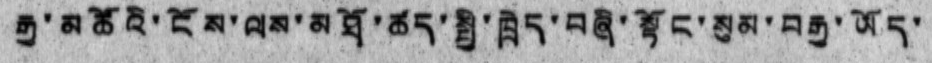རྒྱ་མཚོའི་ངོས་ལས་མཐོ་ཚད་སྤྱི་ཁྲིད་བཞི་སྟོང་སུམ་བརྒྱ་ཡོད་
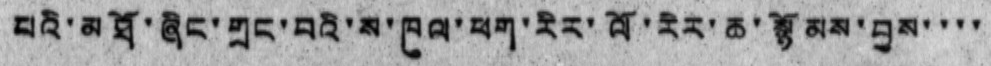པའི་མཐོ་ཞིང་གྲང་བའི་ས་ཁུལ་ཕག་རིར་ལོ་རེར་ཆ་སྙོམས་བྱས་་་་
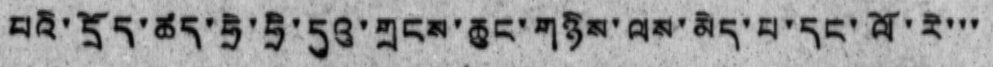པའི་དྲོད་ཚད་ཧྲེ་ཧྲི་དུའུ་གྲངས་ཆུང་གཉིས་ལས་མེད་པ་དང་ལོ་རེ་་་
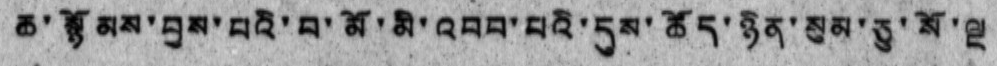ཆ་སྙོམས་བྱས་པའི་བ་མོ་མི་འབབ་པའི་དུས་ཚོད་ཉིན་སུམ་ཅུ་སོ་ལྔ
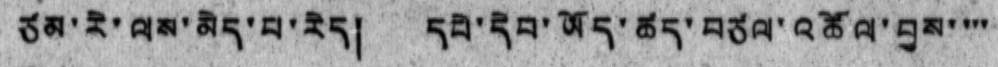ཙམ་རེ་ལས་མེད་པ་རེད། དཔེ་དེབ་ཡོད་ཚད་བཙལ་འཚོལ་བྱས་་་་
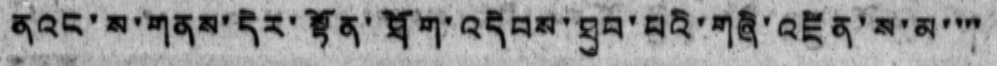ནའང་བ་གནས་དེར་སྟོན་ཐོག་འདེབས་ཐུབ་པའི་གཞི་འཛིན་ས་མ་་་་
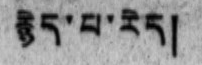རྙེད་པ་རེད།
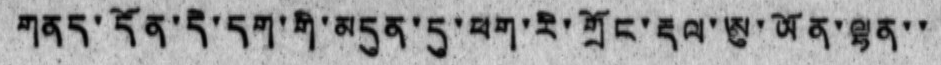གནད་དོན་དེ་དག་གི་མདུན་དུ་ཕག་རི་གྲོང་རྡལ་ཨུ་ཡོན་ལྷན་་
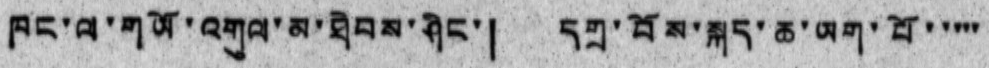ཁང་ལ་གཡོ་འགུལ་མ་ཐེབས་ཤིང་། དགྲ་བོས་སྐད་ཆ་ཡག་པོ་་་་་
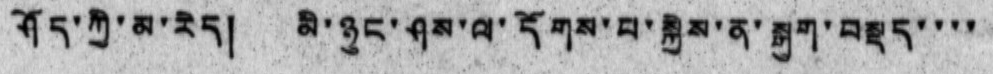ཤོད་ཀྱི་མ་རེད། མི་ཉུང་ཤས་ལ་དོགས་པ་སྐྱེས་ན་སྒུག་བསྡད་་་་
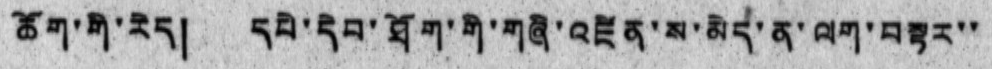ཆོག་གི་རེད། དཔེ་དེབ་ཐོག་གི་གཞི་འཛིན་ས་མེད་ན་ལག་བསྟར་་
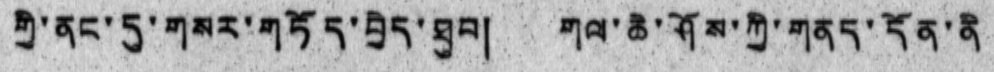གྱི་ནང་དུ་གསར་གཏོད་བྱེད་ཐུབ། གལ་ཆེ་ཤོས་ཀྱི་གནད་དོན་ནི
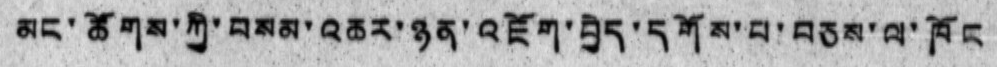མང་ཚོགས་ཀྱི་བསམ་འཆར་ཉན་འཇོག་བྱེད་དགོས་པ་བཅས་ལ་ཁོང
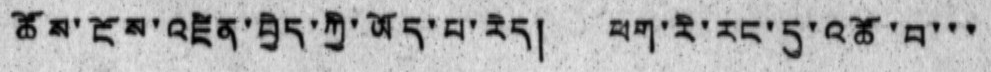ཚོས་ངོས་འཛིན་བྱེད་ཀྱི་ཡོད་པ་རེད། ཕག་རི་རང་དུ་འཚོ་བ་་་
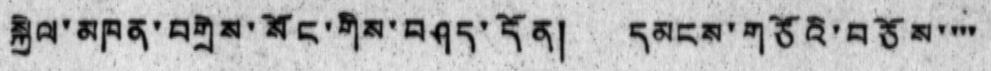སྐྱེལ་མཁན་བགྲེས་སོང་གིས་བཤད་དོན། དམངས་གཙོའི་བཅོས་་་་
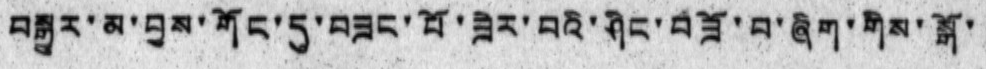བསྒྱུར་མ་བྱས་གོང་དུ་བཟང་པོ་ཟེར་བའི་ཤིང་བཟོ་བ་ཞིག་གིས་སྒོ་
